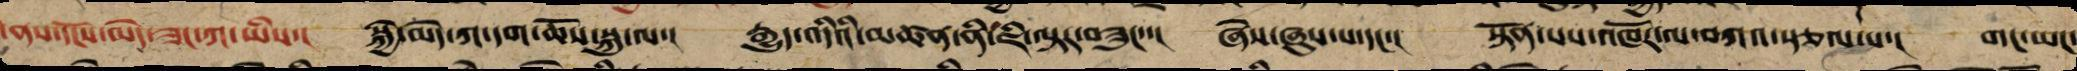་ནས་དངོས་མེད་ཟང་ཀ་ཡིས་། སྐྱེ་མེད་ཀ་དག་ཆོས་སྐུ་ལ་། རྒྱུད་འདིའི་མཚན་ནི་ཇི་ལྟར་བཟུང་་། ཞེས་ཞུས་པ་དང་། སྟོན་པས་འཁོར་ལ་བཀའ་སྩལ་པ་། གང་ཡང་
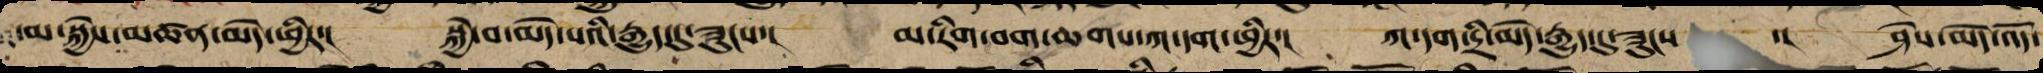མ་སྐྱེས་མཚན་མེད་ཕྱིར་། སྐྱེ་བ་མེད་པའི་རྒྱུད་དུ་ཟུངས་། མ་རིག་བག་ཆགས་ཀ་དག་ཕྱིར་། ཀ་དག་དྲི་མེད་རྒྱུད་དུ་ཟུངས ་། ཤེས་མེད་འོད་
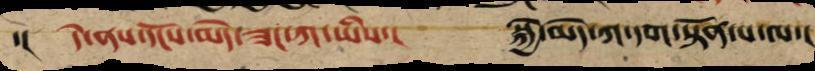་། དེ་ནས་དངོས་མེད་ཟང་ཀ་ཡིས་། སྐྱེ་མེད་ཀ་དག་སྟོན་པ་ལ་།
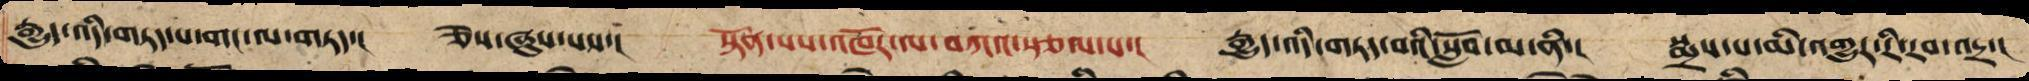རྒྱུད་འདི་གཏད་པ་གང་ལ་གཏད་། ཅེས་ཞུས་པས་། སྟོན་པས་འཁོར་ལ་བཀའ་སྩལ་པ་། རྒྱུད་འདི་གཏད་བའི་སློབ་མ་ནི་། སྨྲས་པ་མི་འགྱུར་རི་རབ་འདྲ་།
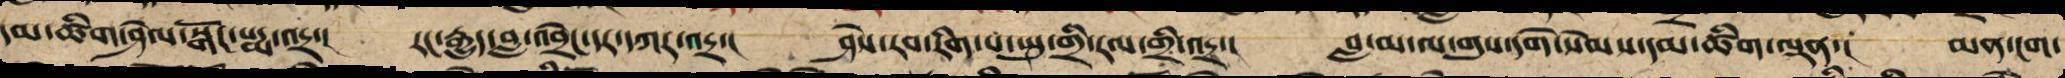དམ་ཚིག་ཤེལ་སྒོང་པདྨ་འདྲ་། རང་རྒྱུད་བླ་འབྲེང་དར་དཀར་འདྲ་། ཤེས་རབ་རིག་པ་སྤུ་གྲི་རལ་གྲི་འདྲ་། བླ་མ་ལ་གུས་དགེ་སེམས་དམ་ཚིག་ལྡན་། མན་ངག་
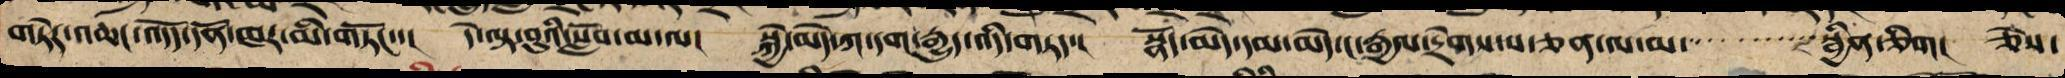གཏེར་འཆང་འདོད་དོན་ཁར་མི་གཏོང་་། དེ་ལྟ་བུའི་སློབ་མ་ལ། སྐྱེ་མེད་ཀ་དག་རྒྱུད་འདི་གཏད་། སྣོད་མེད་དམ་མེད་ང་རྒྱལ་དྲེགས་པ་ཅན་ལ་མ་ སྦྱིན་ཅིག། ཅེས་
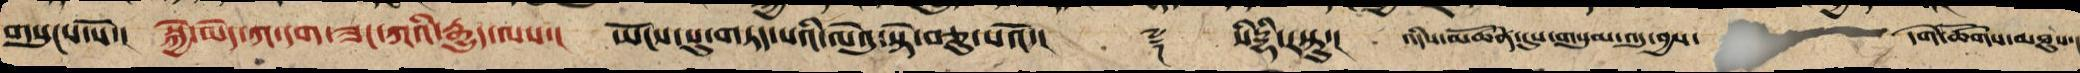གསུངས་སོ་། སྐྱེ་མེད་ཀ་དག་ཟང་ཀའི་རྒྱུད་ལས་། ཡོངས་སུ་གཏད་པའི་ལེའུ་སྟེ་བཅུ་པའོ་།། ༈ སིདྡྷི་རསྟུ་། འདིས་མཚོན་དུས་གསུམ་འདུ་བྱས་ དགེ་ཚོགས་མཐུས་།
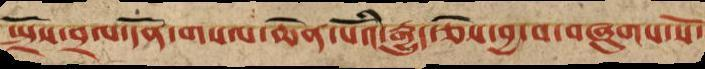སྤྲོས་བྲལ་དོན་གསལ་ཆེན་པོའི་རྒྱུད་ཅེས་བྱ་བ་བཞུགས་སོ་
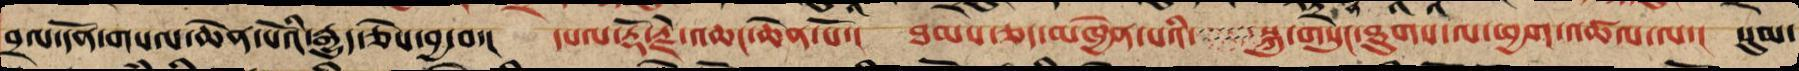བྲལ་དོན་གསལ་ཆེན་པོའི་རྒྱུད་ཅེས་བྱ་བ་། དཔལ་རྡོ་རྗེ་འཆང་ཆེན་པོ་། ཐམས་ཅད་མཁྱེན་པའི་ སྐུ་གསུང་ཐུགས་ལ་ཕྱག་འཚལ་ལ་། སུམ་
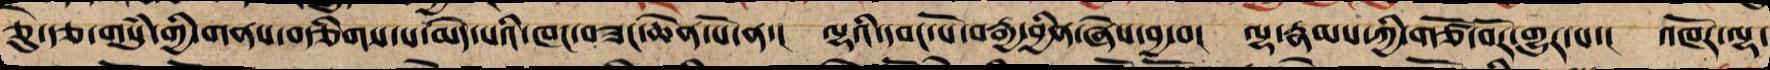ཅུ་རྩ་གསུཾ་གྱི་གནས་བརྩིགས་པ་མེད་པའི་ཁང་བཟང་ཆེན་པོ་ན་། ལྷའི་དབང་པོ་བརྒྱ་བྱིན་ཞེས་བྱ་བ། ལྷ་རྣམས་ཀྱི་གཙོ་བོར་གྱུར་པ་། འཁོར་ལྷ་
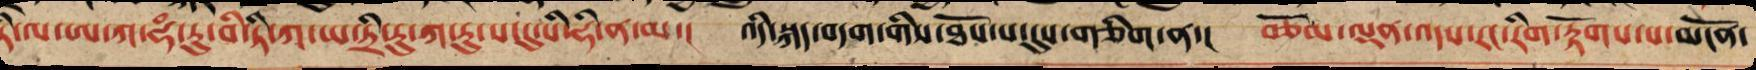ཏི་ལ་ཨཀ་ཧཾ་རུ་བི་ཏི་ཀ་ཡ་ཏྲི་རུ་ཀ་རུ་ས་དུ་སི་ཧི་ན་མ་། འདི་སྐད་བདག་གིས་ཐོས་པའི་དུས་གཅིག་ན་། བཅོམ་ལྡན་འདས་རང་རིག་རྟོགས་པ་མངོན་
